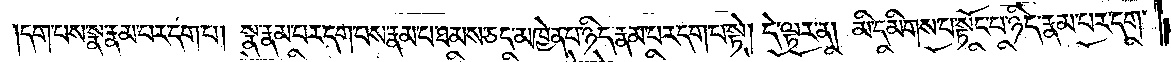དག་པས་སྣ་རྣམ་པར་དག་པ། སྣ་རྣམ་པར་དག་པས་རྣམ་པ་ཐམས་ཅད་མཁྱེན་པ་ཉིད་རྣམ་པར་དག་པ་སྟེ། དེ་ལྟར་ན། མི་དམིགས་པ་སྟོང་པ་ཉིད་རྣམ་པར་དག་
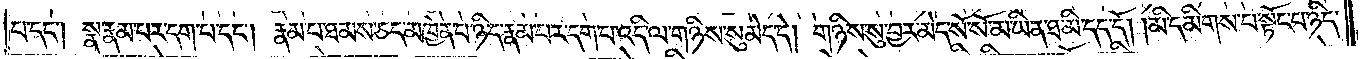པ་དང༌། སྣ་རྣམ་པར་དག་པ་དང༌། རྣམ་པ་ཐམས་ཅད་མཁྱེན་པ་ཉིད་རྣམ་པར་དག་པ་འདི་ལ་གཉིས་སུ་མེད་དེ། གཉིས་སུ་བྱར་མེད་སོ་སོ་མ་ཡིན་ཐ་མི་དད་དོ། །མི་དམིགས་པ་སྟོང་པ་ཉིད་
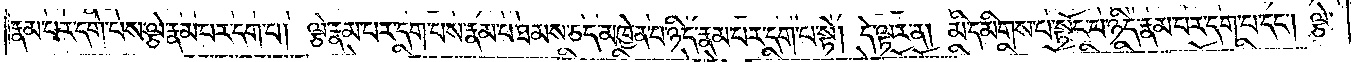རྣམ་པར་དག་པས་ལྕེ་རྣམ་པར་དག་པ། ལྕེ་རྣམ་པར་དག་པས་རྣམ་པ་ཐམས་ཅད་མཁྱེན་པ་ཉིད་རྣམ་པར་དག་པ་སྟེ། དེ་ལྟར་ན། མི་དམིགས་པ་སྟོང་པ་ཉིད་རྣམ་པར་དག་པ་དང༌། ལྕེ་
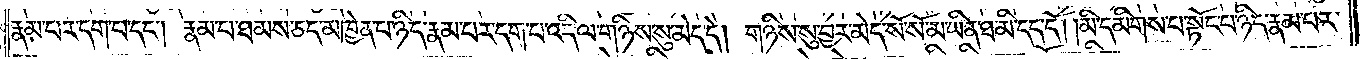རྣམ་པར་དག་པ་དང༌། རྣམ་པ་ཐམས་ཅད་མཁྱེན་པ་ཉིད་རྣམ་པར་དག་པ་འདི་ལ་གཉིས་སུ་མེད་དེ། གཉིས་སུ་བྱར་མེད་སོ་སོ་མ་ཡིན་ཐ་མི་དད་དོ། །མི་དམིགས་པ་སྟོང་པ་ཉིད་རྣམ་པར་
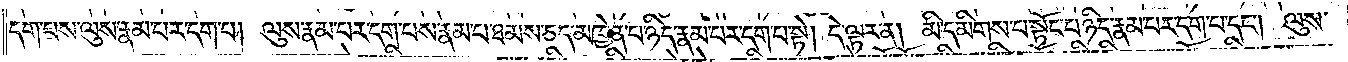དག་པས་ལུས་རྣམ་པར་དག་པ། ལུས་རྣམ་པར་དག་པས་རྣམ་པ་ཐམས་ཅད་མཁྱེན་པ་ཉིད་རྣམ་པར་དག་པ་སྟེ། དེ་ལྟར་ན། མི་དམིགས་པ་སྟོང་པ་ཉིད་རྣམ་པར་དག་པ་དང༌། ལུས་
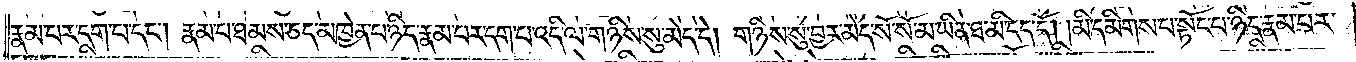རྣམ་པར་དག་པ་དང༌། རྣམ་པ་ཐམས་ཅད་མཁྱེན་པ་ཉིད་རྣམ་པར་དག་པ་འདི་ལ་གཉིས་སུ་མེད་དེ། གཉིས་སུ་བྱར་མེད་སོ་སོ་མ་ཡིན་ཐ་མི་དད་དོ། །མི་དམིགས་པ་སྟོང་པ་ཉིད་རྣམ་པར་
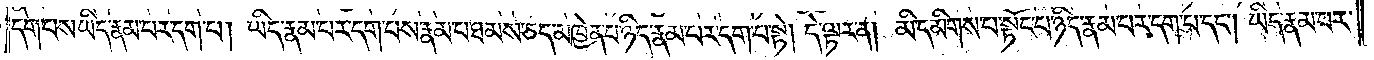དག་པས་ཡིད་རྣམ་པར་དག་པ། ཡིད་རྣམ་པར་དག་པས་རྣམ་པ་ཐམས་ཅད་མཁྱེན་པ་ཉིད་རྣམ་པར་དག་པ་སྟེ། དེ་ལྟར་ན། མི་དམིགས་པ་སྟོང་པ་ཉིད་རྣམ་པར་དག་པ་དང༌། ཡིད་རྣམ་པར་
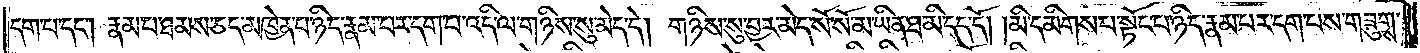དག་པ་དང༌། རྣམ་པ་ཐམས་ཅད་མཁྱེན་པ་ཉིད་རྣམ་པར་དག་པ་འདི་ལ་གཉིས་སུ་མེད་དེ། གཉིས་སུ་བྱར་མེད་སོ་སོ་མ་ཡིན་ཐ་མི་དད་དོ། །མི་དམིགས་པ་སྟོང་པ་ཉིད་རྣམ་པར་དག་པས་གཟུགས་
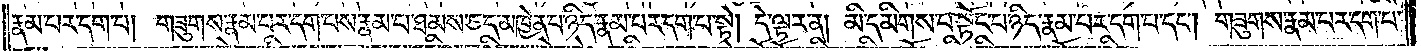རྣམ་པར་དག་པ། གཟུགས་རྣམ་པར་དག་པས་རྣམ་པ་ཐམས་ཅད་མཁྱེན་པ་ཉིད་རྣམ་པར་དག་པ་སྟེ། དེ་ལྟར་ན། མི་དམིགས་པ་སྟོང་པ་ཉིད་རྣམ་པར་དག་པ་དང༌། གཟུགས་རྣམ་པར་དག་པ་
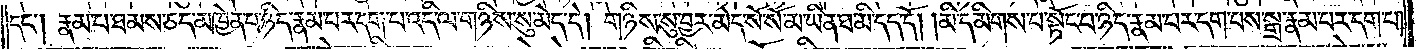དང༌། རྣམ་པ་ཐམས་ཅད་མཁྱེན་པ་ཉིད་རྣམ་པར་དག་པ་འདི་ལ་གཉིས་སུ་མེད་དེ། གཉིས་སུ་བྱར་མེད་སོ་སོ་མ་ཡིན་ཐ་མི་དད་དོ། །མི་དམིགས་པ་སྟོང་པ་ཉིད་རྣམ་པར་དག་པས་སྒྲ་རྣམ་པར་དག་པ།
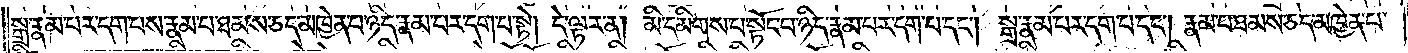སྒྲ་རྣམ་པར་དག་པས་རྣམ་པ་ཐམས་ཅད་མཁྱེན་པ་ཉིད་རྣམ་པར་དག་པ་སྟེ། དེ་ལྟར་ན། མི་དམིགས་པ་སྟོང་པ་ཉིད་རྣམ་པར་དག་པ་དང༌། སྒྲ་རྣམ་པར་དག་པ་དང༌། རྣམ་པ་ཐམས་ཅད་མཁྱེན་པ་
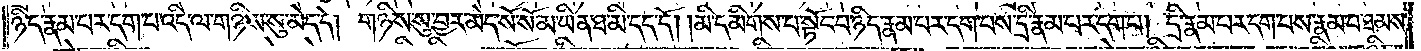ཉིད་རྣམ་པར་དག་པ་འདི་ལ་གཉིས་སུ་མེད་དེ། གཉིས་སུ་བྱར་མེད་སོ་སོ་མ་ཡིན་ཐ་མི་དད་དོ། །མི་དམིགས་པ་སྟོང་པ་ཉིད་རྣམ་པར་དག་པས་དྲི་རྣམ་པར་དག་པ། དྲི་རྣམ་པར་དག་པས་རྣམ་པ་ཐམས་
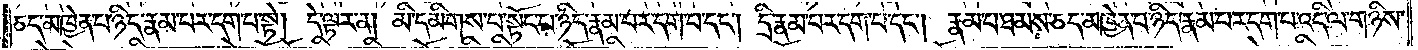ཅད་མཁྱེན་པ་ཉིད་རྣམ་པར་དག་པ་སྟེ། དེ་ལྟ་ན། མི་དམིགས་པ་སྟོང་པ་ཉིད་རྣམ་པར་དག་པ་དང༌། དྲི་རྣམ་པར་དག་པ་དང༌། རྣམ་པར་ཐམས་ཅད་མཁྱེན་པ་ཉིད་རྣམ་པར་དག་པ་འདི་ལ་གཉིས་
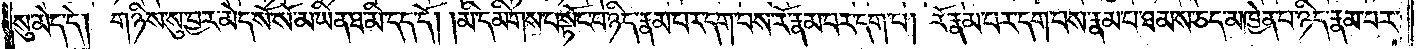སུ་མེད་དེ། གཉིས་སུ་བྱར་མེད་སོ་སོ་མ་ཡིན་ཐ་མི་དད་དོ། །མི་དམིགས་པ་སྟོང་པ་ཉིད་རྣམ་པར་དག་པས་རོ་རྣམ་པར་དག་པ། རོ་རྣམ་པར་དག་པས་རྣམ་པ་ཐམས་ཅད་མཁྱེན་པ་ཉིད་རྣམ་པར་
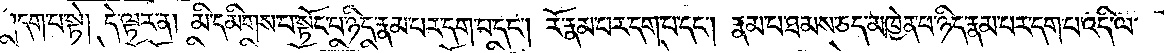དག་པ་སྟེ། དེ་ལྟར་ན། མི་དམིགས་པ་སྟོང་པ་ཉིད་རྣམ་པར་དག་པ་དང༌། རོ་རྣམ་པར་དག་པ་དང༌། རྣམ་པ་ཐམས་ཅད་མཁྱེན་པ་ཉིད་རྣམ་པར་དག་པ་འདི་ལ་
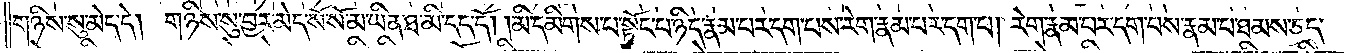གཉིས་སུ་མེད་དེ། གཉིས་སུ་བྱར་མེད་སོ་སོ་མ་ཡིན་ཐ་མི་དད་དོ། །མི་དམིགས་པ་སྟོང་པ་ཉིད་རྣམ་པར་དག་པས་རེག་རྣམ་པར་དག་པ། རེག་རྣམ་པར་དག་པས་རྣམ་པ་ཐམས་ཅད་
